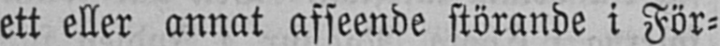ett eller annat afseende störande i För-
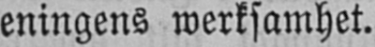eningens werksamhet.
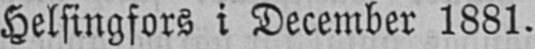Helsingfors i December 1881.
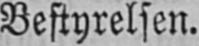Bestyrelsen.
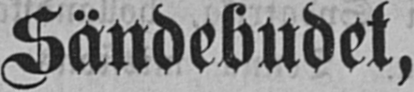Sändebudet,
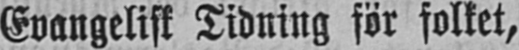Evangelisk Tidning för folket,
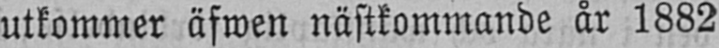utkommer äfwen nästkommande år 1882
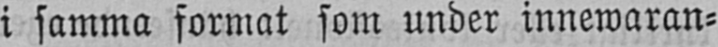i samma format som under innewaran-
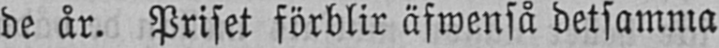de år. Priset förblir äfwenså detsamma
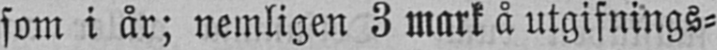som i år; nemligen 3 mark å utgifnings-
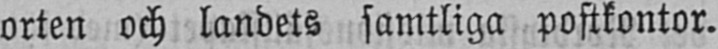orten och landets samtliga postkontor.
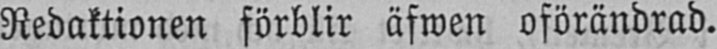Redaktionen förblir äfwen oförändrad.
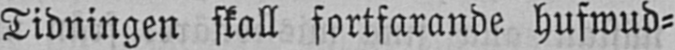Tidningen skall fortfarande hufwud-
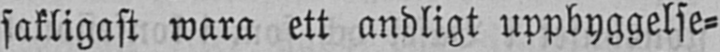sakligast wara ett andligt uppbyggelse-
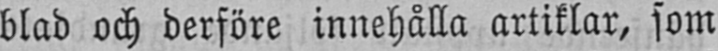blad och derföre innehålla artiklar, som
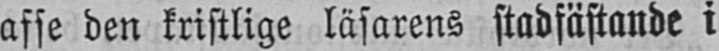afse den kristlige läsarens stadfästande i
